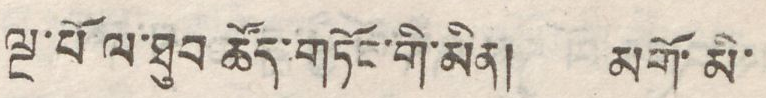ལྔ་པོ ལ་ཐུབ ཚོད་གཏོང་གི་མིན། མགོ་མི་
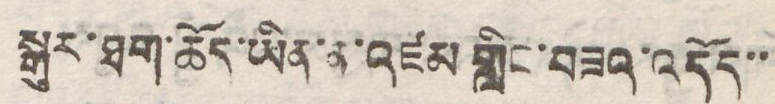སྒུར་ཐག་ཆོད་ཡིན་ན་འཛམ གླིང་བཟའ་འདོད་་
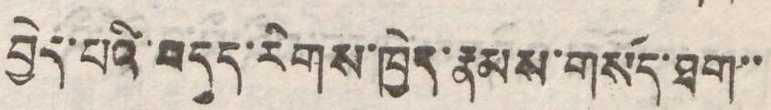བྱེད་པའི་བདུད་རིགས་ཁྱེད་རྣམས་གསོད་ཐག་་
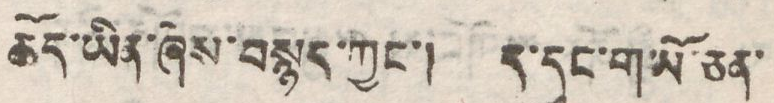ཆོད་ཡིན་ཞེས་བསྙད་ཀྱང་། ད་དུང་གཡོ་ཅན་
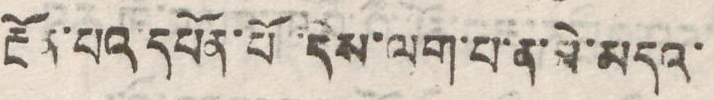རྔོན་པའ དཔོན་པོ་དེས་ལག་པ་ན་མེ་མདའ་
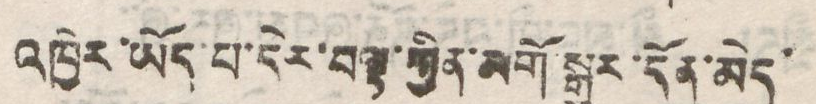འཁྱེར་ཡོད་པ་དེར་བསྟ་ཀྱིན་མགོ་སྒུར་དོན་མེད་
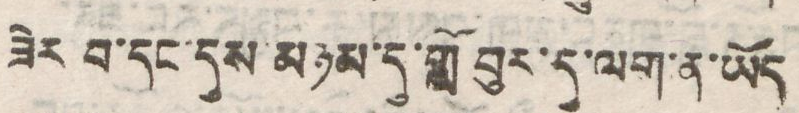ཟེར བ་དང་དུས་མཉམ་དུ་གློ བུར་དུ་ལག་ན་ཡོད
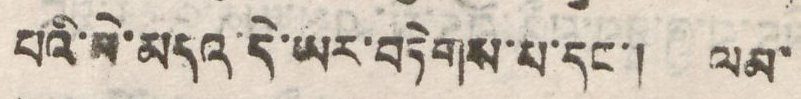པའི་མེ་མདའ་དེ་ཡར་བཏེགས་པ་དང་། ལམ་
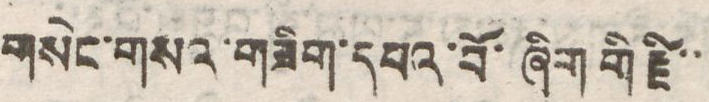གསེང་གསའ་གཟིག་དཔའ་བོ་ཞིག གི་རྗི་་
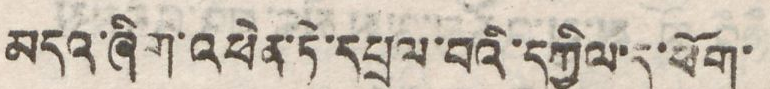མདའ་ཞིག་འཕེན་ཏེ་དཔྲལ་བའི་དཀྱིལ་དུ་ཕོག་
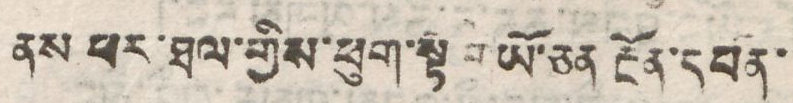ནས ཕར་ཐལ་གྱིས་ཕུག་སྟེ གཡོ་ཅན རྔོན་དཔོན་
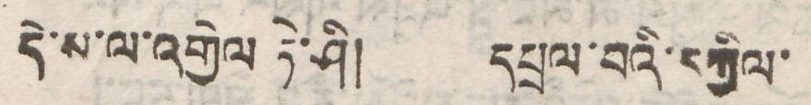དེ་ས་ལ་འགྱེལ ཏེ་ཤི། དཔྲལ་བའི་དཀྱིལ་
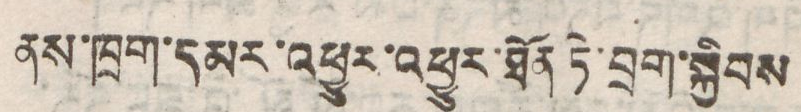ནས་ཁྲག་དམར་འཕྱུར་ཐོན་ཏེ་བྲག་སྐྱིབས
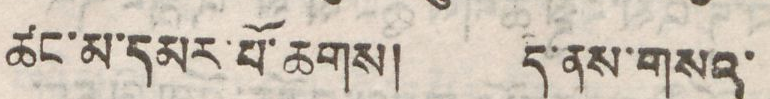ཚང་མ་དམར་པོ་ཆགས། ད་ནས་གསའ་
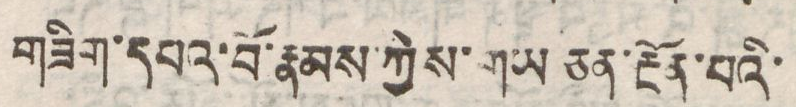གཟིག་དཔའ་བོ་རྣམས་ཀྱིས་གཡ ཅན་རྔོན་པའི་
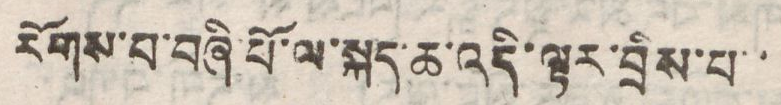རོགས་བ་ཞིག་པོ་ལ་སྐད་ཆ་འདི་ལྟར་བྲིས་པ་་
